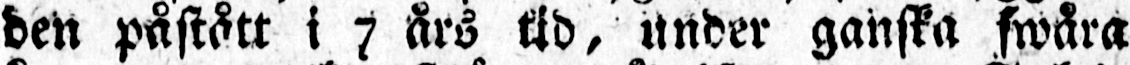den påstått i 7 års tid, under ganska swåra
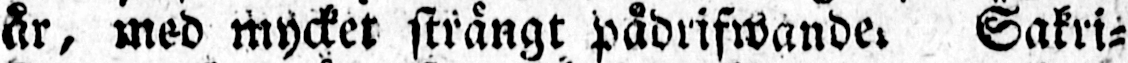år, med mycket strängt pådrifwande. Sakri-
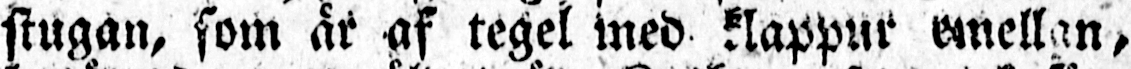stugan, som är af tegel med klappur emellan,
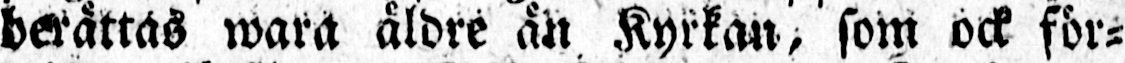berättas wara äldre än Kyrkan, som ock för-
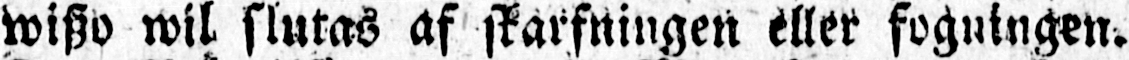wiszo wil slutas af skarfningen eller fogningen.
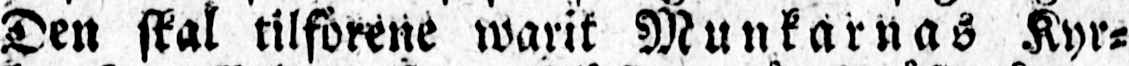Den skal tilförene warit Munkarnas Kyr-
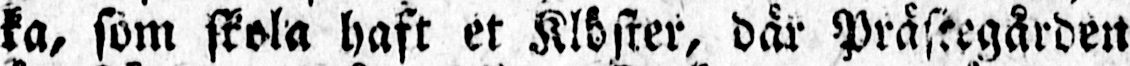ka, som skola haft et Klöster, där Prästegården
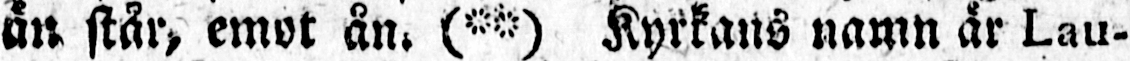än står, emot ån. (**) Kyrkans namn är Lau-
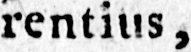rentius.
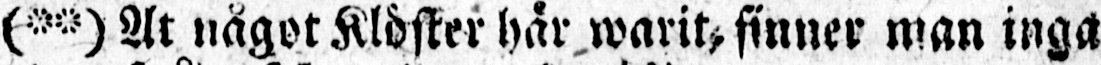(**) At något Klöster här warit, finner man inga
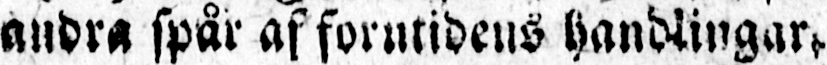andra spår af forntidens handlingar.
